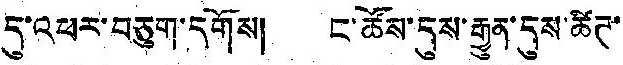དུ་འཕར་བཅུག་དགོས། ང་ཚོས་དུས་རྒྱུན་དུས་ཚིཊ་
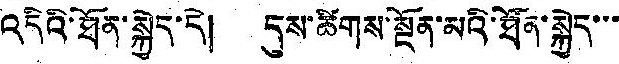འདིའི་ཐོན་སྐྱེད་དེ། དུས་ཚོགས་སྔོན་མའི་ཐོན་སྐྱེད་་་
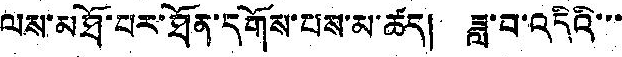ལས་མཐོ་པར་ཐོན་དགོས་པས་མ་ཚད། ཟླ་བ་འདིའི་་་
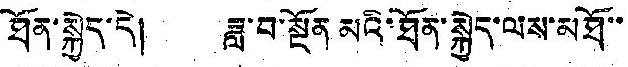ཐོན་སྐྱེད་དེ། ཟླ་བ་སྔོན མའི་ཐོན་སྐྱེད་ལས་མཐོ་་
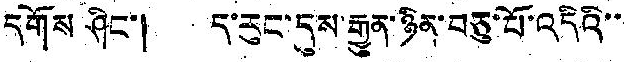དགོས ཤིང་། ད་རུང་དུས་རྒྱུན་ཉིན་བཅུ་པོ་འདིའི་་
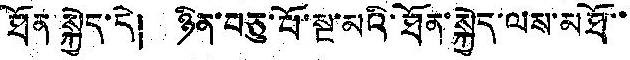ཐོན་སྐྱེད་དེ། ཉིན་བཅུ་པོ་སྔ་མའི་ཐོན་སྐྱེད་ལས་མཐོ་་
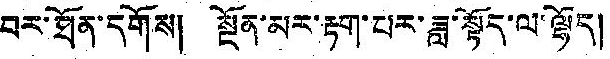བར་ཐོན་དགོས། སྔོན་མར་རྟག་པར་ཟླ་སྟོད་ལ་ལྷོད།
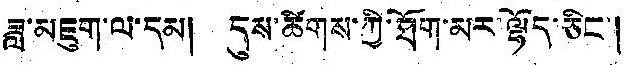ཟླ་མཇུག་ལ་དམ། དུས་ཚིགས་ཀྱི་ཐོག་མར་ལྷོད་ཅིང་།
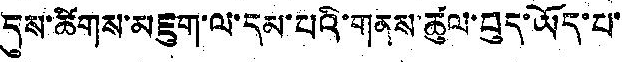དུས་ཚིགས་མཇུག་ལ་དམ་པའི་གནས་ཚུལ་བུད་ཡོད་པ་
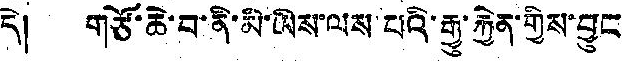དེ། གཙོ་ཆེ་བ་ནི་མི་ཡིས་ལས་པའི་རྒྱུ་རྐྱེན་གྱིས་བྱུང
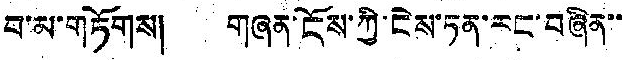བ་མ་གཏོགས། གཞན་ངོས་ཀྱི་ངེས་ཏན་རང་བཞིན་་
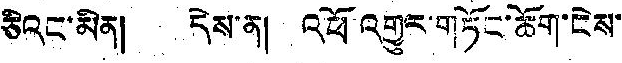ཅིའང་མིན། དེས་ན། འཕོ འགྱུར་གཏོང་ཆོག་ངེས་
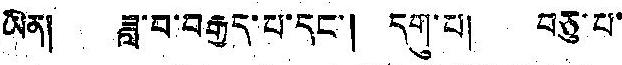ཡིན། ཟླ་བ་བརྒྱད་པ་དང་། དགུ་པ། བཅུ་པ་
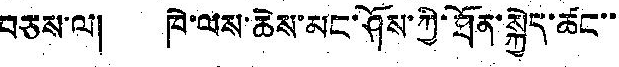བཅས་ལ། ཁེ་ལས་ཆེས་མང་ཤོས་ཀྱི་ཐོན་སྐྱེད་ཚང་་
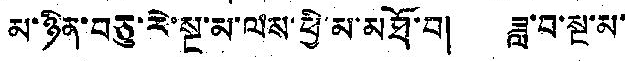མ་ཉིན་བཅུ་རེ་སྔ་མ་ལས་ཕྱི་མ་མཐོ་བ། ཟླ་བ་སྔ་མ་
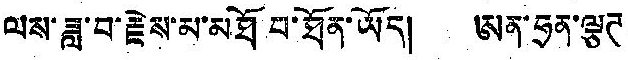ལས་ཟླ་བ་རྗེས་མ་མཐོ པ་ཐོན་ཡོད། ཨན་ཧྲན་ལྕཊ
